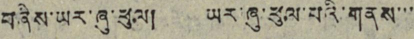བཞིས་ཡར་ཞུ་ཕུལ། ཡར་ཞུ་ཕུལ་པའི་གནས་་་
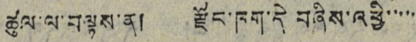ཚུལ་ལ་བལྟས་ན། རྫོང་ཁག་དེ བཞིས་འཕྱི་་་་་
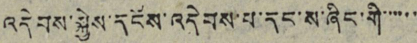འདེབས་སྐྱེས་དངོས་འདེབས་པ་དང་ས་ཞིང་གི་་་་་་
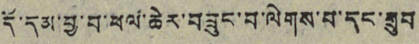དོ་དམ་བྱ་བ་ཕལ་ཆེར་བཟུང་བ་ལེགས་པ་དང་གྲུབ་
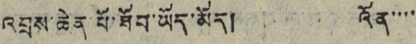འབྲས་ཆེན་པོ་ཐོབ་ཡོད་མོད། འོན་་་་
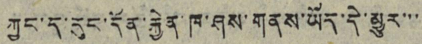ཀྱང་ད་རུང་དོན་རྐྱེན་ཁ་ཤས་གནས་ཡོད་དེ་མྱུར་་་
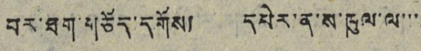བར་ཐག་གཅོད་དགོས། དཔེར་ན་ས་ཁུལ་ལ་་་
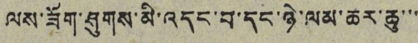ལས་ཟོག་ཤུགས་མི་འདང་བ་དང་ཉེ་ལམ་ཚར་ཆུ་་་
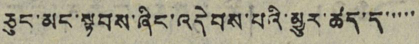ཅུང་མང་སྟབས་ཞིང་འདེབས་པའི་མྱུར་ཚད་ད་་་་་
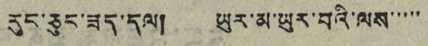རུད་ཅུང་ཟད་དལ། ཡུར་མ་ཡུར་བའི་ལས་་་་་
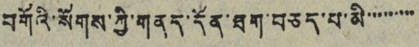བགོའི་སོགས་ཀྱི་གནད་དོན་ཐག་བཅད་པ་མི་་་་་་་་་
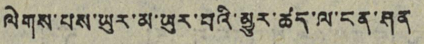ལེགས་པས་ཡུར་མ་ཡུར་བའི་མྱུར་ཚད་ལ་ངན་ཤན
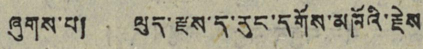ཞུགས་པ། ལུད་རྫས་ད་རུང་དགོས་མཁོའི་རྗེས
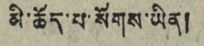མི་ཆོད་པ་སོགས་ཡིན།
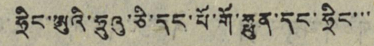ཧྲིང་ཨུའི་ཧྲུའུ་ཅི་དང་པོ་གོ་ཧྥུན་དང་ཧྲིང་་་
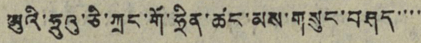ཡུའི་ཧྲུའུ་ཅི་ཀྲང་གོ་ཧྲིན་ཚང་མས་གསུང་བཤད་་་་
